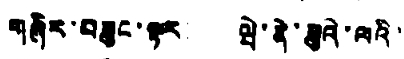གཞིར་གཟུང་སྟར ཝེ་ནེ་ཟུའེ་ལའི་
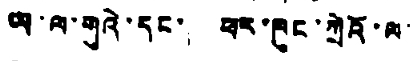ཡ་ལ་གུའེ་དང་ ཕར་ཁུང་ཀྲེའོ་ལ་
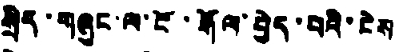སྲིད་གཞུང་ལ་ངོ་རྒོལ་བྱེད་པའི་ངེས་
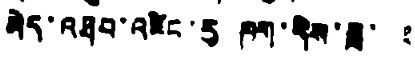མེད་འཐབ་འཛིང་རུ ཁག་དིས་ཟླ་ ༢
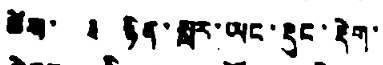ཚེས་ ༣ ཉིན་སླར་ཡང་རྡུང་རྡེག་
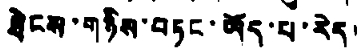ཐེངས་གཉིས་བཏང་ཡོད་པ་རེད།
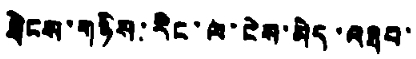ཐིངས་གཉིས་རིང་ལ་ངེས་མེད་འཐབ་
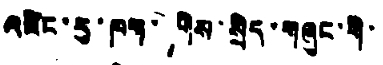འཛིང་རུ་ཁག་གིས་སྲིད་གཞུང་གི་
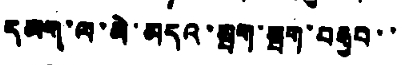དམག་ལ་མེ་མདའ་སྦག་སྦག་བརྒྱབ་་་
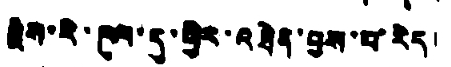རྗེས་རི་ཁུལ་དུ་ཕྱིར་འཐེན་བྱས་པ་རེད།
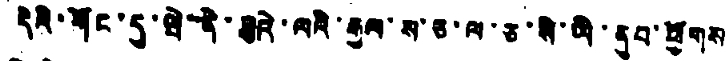དེའི་གོང་དུ་ཝེ་ནེ་ཟུའེ་ལའི་རྒྱལ་ས་ཅ་ལ་ཅ་སི་ཡི་ནུབ་ཕྱོགས
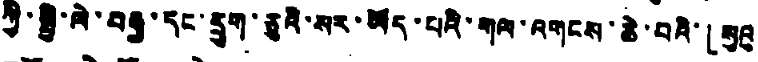ཀྱི་སྤྱི་ལེ་བརྒྱ་དང་དྲུག་ཅུའི་སར་ཡོད་པའི་གལ་འགངས་ཆེ་བའི་「སུའུ
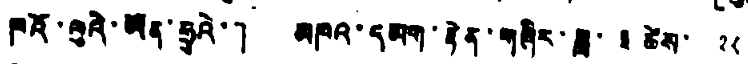ཁའོ་ལུའེ་ཡོན་ཧྲུའེ་」 མཁའ་དམག་རྟེན་གཞིར་ཟླ་ ༣ ཚེས་ ༢༨
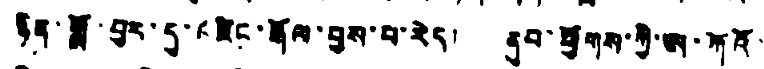ཉིན་གློ་བྱར་དུ་འཛིང་རྒོལ་བྱས་པ་རེད། ནུབ་ཕྱུགས་ཀྱི་ཨ་ཀོའོ་
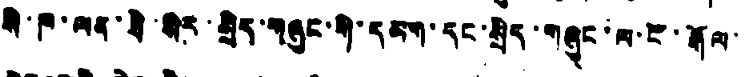སི་ཁ་ལན་ཐེ་སིར་སྲིད་གཞུང་གི་དམག་དང་སྲིད་གཞུང་ལ་ངོ་རྒོལ་
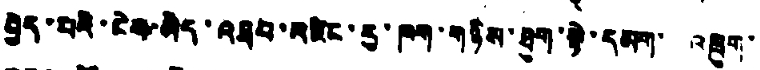བྱེད་པའི་ངེས་མེད་འཐབ་འཛིང་རུ་ཁག་གཉིས་ཐུག་སྟེ་དམག་ འཁྲུག་
